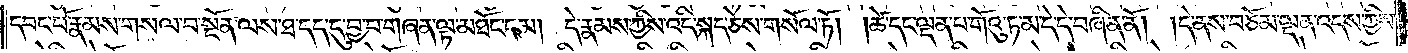དབང་པོ་རྣམས་གསལ་བ་སྔོན་ལས་ཐ་དད་དུ་བྱ་བ་གཞན་ལྟ་མཐོང་ངམ། དེ་རྣམས་ཀྱིས་འདི་སྐད་ཅེས་གསོལ་ཏོ། །ཚེ་དང་ལྡན་པ་གོའུ་ཏ་མ་དེ་དེ་བཞིན་ནོ། །དེ་ནས་བཅོམ་ལྡན་འདས་ཀྱིས་
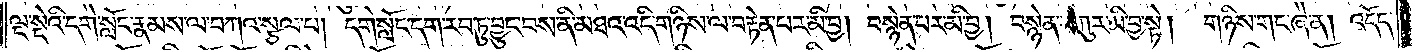ལྔ་སྡེའི་དགེ་སློང་རྣམས་ལ་བཀའ་སྩལ་པ། དགེ་སློང་དག་རབ་ཏུ་བྱུང་བས་ནི་མཐའ་འདི་གཉིས་ལ་བརྟེན་པར་མི་བྱ། བསྙེན་པར་མི་བྱ། བསྙེན་བཀུར་མི་བྱ་སྟེ། གཉིས་གང་ཞེ་ན། འདོད་
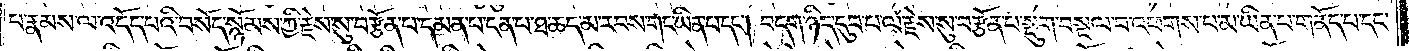པ་རྣམས་ལ་འདོད་པའི་བསོད་སྙོམས་ཀྱི་རྗེས་སུ་བརྩོན་པ་དམན་པ་ངན་པ་ཐ་ཆད་མ་རབས་གང་ཡིན་པ་དང༌། བདག་ཉིད་དུབ་པ་ལ་རྗེས་སུ་བརྩོན་པ་སྡུག་བསྔལ་བ་འཕགས་པ་མ་ཡིན་པ་གནོད་པ་དང་
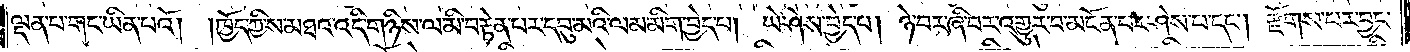ལྡན་པ་གང་ཡིན་པའོ། །ཁྱོད་ཀྱིས་མཐའ་འདི་གཉིས་ལ་མི་བརྟེན་པར་དབུ་མའི་ལམ་མིག་བྱེད་པ། ཡེ་ཤེས་བྱེད་པ། ཉེ་བར་ཞི་བར་འགྱུར་བ་མངོན་པར་ཤེས་པ་དང༌། རྫོགས་པར་བྱང་
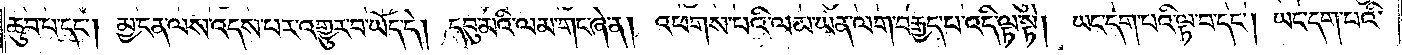ཆུབ་པ་དང༌། མྱ་ངན་ལས་འདས་པར་འགྱུར་བ་ཡོད་དེ། དབུ་མའི་ལམ་གང་ཞེ་ན། འཕགས་པའི་ལམ་ཡན་ལག་བརྒྱད་པ་འདི་ལྟ་སྟེ། ཡང་དག་པའི་ལྟ་བ་དང༌། ཡང་དག་པའི་
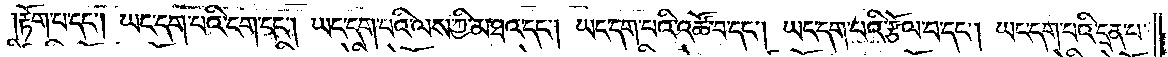།རྟོག་པ་དང༌། ཡང་དག་པའི་ངག་དང༌། ཡང་དག་པའི་ལས་ཀྱི་མཐའ་དང༌། ཡང་དག་པའི་འཚོ་བ་དང༌། ཡང་དག་པའི་རྩོལ་བ་དང༌། ཡང་དག་པའི་དྲན་པ་
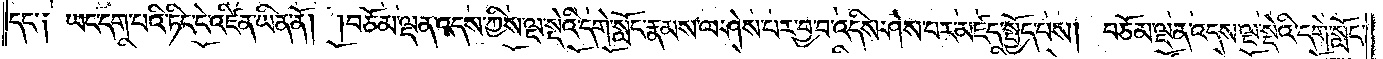དང་༑ ཡང་དག་པའི་ཏིང་ངེ་འཛིན་ཡིན་ནོ། །བཅོམ་ལྡན་འདས་ཀྱིས་ལྔ་སྡེའི་དགེ་སློང་རྣམས་ལ་ཤེས་པར་བྱ་བ་འདིས་ཤེས་པར་མཛད་སྤྱོད་པས། བཅོམ་ལྡན་འདས་ལྔ་སྡེའི་དགེ་སློང་
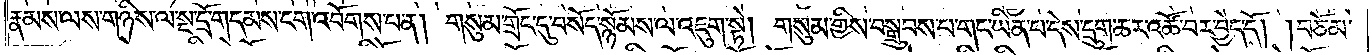རྣམས་ལས་གཉིས་ལ་སྔ་དྲོ་གདམས་ངག་འབོགས་པ་ན། གསུམ་གྲོང་དུ་བསོད་སྙོམས་ལ་འཇུག་སྟེ། གསུམ་གྱིས་བསྒྲུབས་པ་གང་ཡིན་པ་དེས་དྲུག་ཆར་འཚོ་བར་བྱེད་དོ། །བཅོམ་
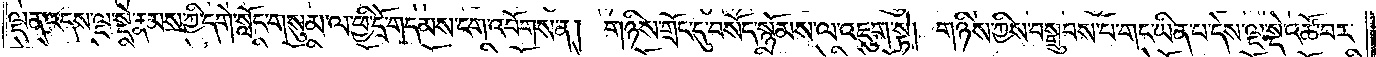ལྡན་འདས་ལྔ་སྡེ་རྣམས་ཀྱི་དགེ་སློང་གསུམ་ལ་ཕྱི་དྲོ་གདམས་ངག་འབོགས་ན། གཉིས་གྲོང་དུ་བསོད་སྙོམས་ལ་འཇུག་སྟེ། གཉིས་ཀྱིས་བསྒྲུབས་པ་གང་ཡིན་པ་དེས་ལྔ་སྡེ་འཚོ་བར་
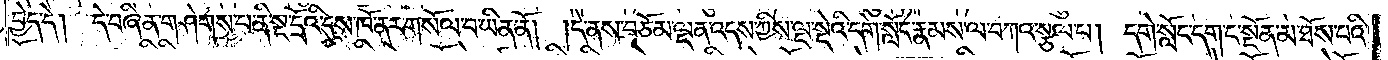བྱེད་དེ། དེ་བཞིན་གཤེགས་པ་ནི་སྔ་དྲོའི་དུས་ཁོ་ནར་གསོལ་བ་ཡིན་ནོ། །དེ་ནས་བཅོམ་ལྡན་འདས་ཀྱིས་ལྔ་སྡེའི་དགེ་སློང་རྣམས་ལ་བཀའ་སྩལ་པ། དགེ་སློང་དག་ང་སྔོན་མ་ཐོས་པའི་
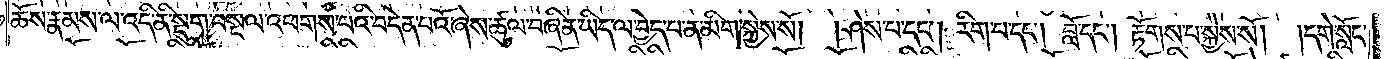ཆོས་རྣམས་ལ་འདི་ནི་སྡུག་བསྔལ་འཕགས་པའི་བདེན་པའོ་ཞེས་ཚུལ་བཞིན་ཡིད་ལ་བྱེད་པ་ན་མིག་སྐྱེས་སོ། །ཤེས་པ་དང༌། རིག་པ་དང༌། བློ་དང༌། རྟོགས་པ་སྐྱེས་སོ། །དགེ་སློང་
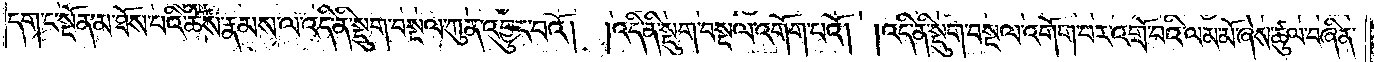དག་ང་སྔོན་མ་ཐོས་པའི་ཆོས་རྣམས་ལ་འདི་ནི་སྡུག་བསྔལ་ཀུན་འབྱུང་བའོ། །འདི་ནི་སྡུག་བསྔལ་འགོག་པའོ། །འདི་ནི་སྡུག་བསྔལ་འགོག་པར་འགྲོ་བའི་ལམ་མོ་ཞེས་ཚུལ་བཞིན་
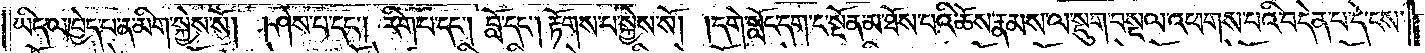ཡིད་ལ་བྱེད་པ་ན་མིག་སྐྱེས་སོ། །ཤེས་པ་དང༌། རིག་པ་དང༌། བློ་དང༌། རྟོགས་པ་སྐྱེས་སོ། །དགེ་སློང་དག་ང་སྔོན་མ་ཐོས་པའི་ཆོས་རྣམས་ལ་སྡུག་བསྔལ་འཕགས་པའི་བདེན་པ་དེ་ངས་
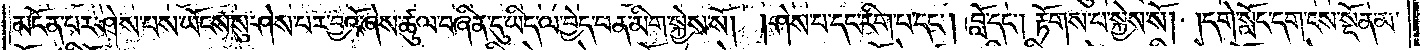མངོན་པར་ཤེས་པས་ཡོངས་སུ་ཤེས་པར་བྱའོ་ཞེས་ཚུལ་བཞིན་དུ་ཡིད་ལ་བྱེད་པ་ན་མིག་སྐྱེས་སོ། །ཤེས་པ་དང་རིག་པ་དང༌། བློ་དང༌། རྟོགས་པ་སྐྱེས་སོ། །དགེ་སློང་དག་ངས་སྔོན་མ་
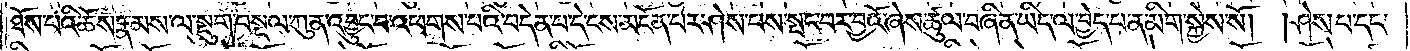ཐོས་པའི་ཆོས་རྣམས་ལ་སྡུག་བསྔལ་ཀུན་འབྱུང་བ་འཕགས་པའི་བདེན་པ་དེ་ངས་མངོན་པར་ཤེས་པས་སྤང་བར་བྱའོ་ཞེས་ཚུལ་བཞིན་ཡིད་ལ་བྱེད་པ་ན་མིག་སྐྱེས་སོ། །ཤེས་པ་དང་
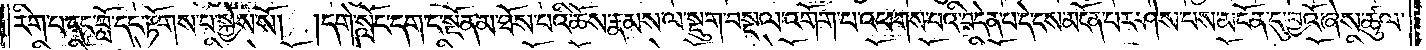རིག་པ་དང་བློ་དང་རྟོགས་པ་སྐྱེས་སོ། །དགེ་སློང་དག་ང་སྔོན་མ་ཐོས་པའི་ཆོས་རྣམས་ལ་སྡུག་བསྔལ་འགོག་པ་འཕགས་པའི་བདེན་པ་དེ་ངས་མངོན་པར་ཤེས་པས་མངོན་དུ་བྱའོ་ཞེས་ཚུལ་
